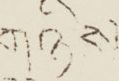གཉིས
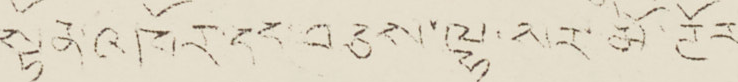སྟོན་འཁོར་དང་བཅས་ལྷ་སར་མོ་ཊོར་
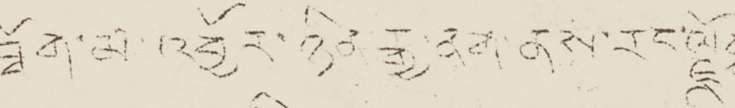ཐོག་མ་འབྱོར་ཉིན་རྒྱ་ནག་ནས་རང་སྗོངྶ་
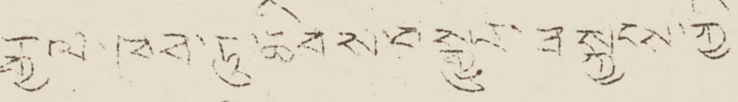རྒྱལ་ཁབ་ཏུ་ཆིབས་བསྒྱུར་བསྐྱངས་ཀྱི་
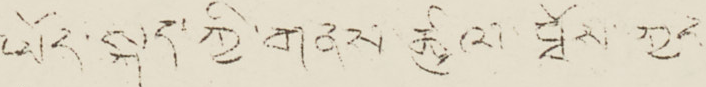ཡོད་སྐབས་ཀྱི་གནས་ཚུལ ཐོས་ཀྱང་
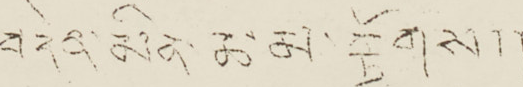བདེན་མིན་ཆ་མ་རྟོགས།།
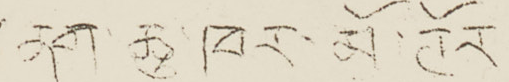༈ ནག་རྒྱ་ཁར་མོ་ཊོར:—
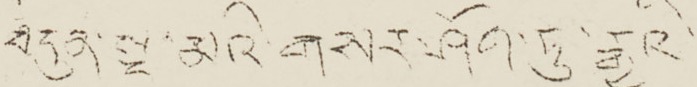བདུན་སྔ་མའི་གསར་ཤོག་ཏུ་རྒྱའི་
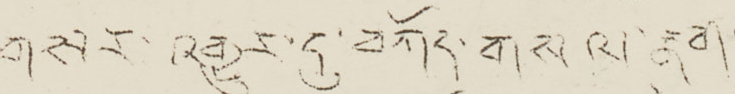གསར་འགྱུར་དུ་བཀོད་གསལ་ནག་
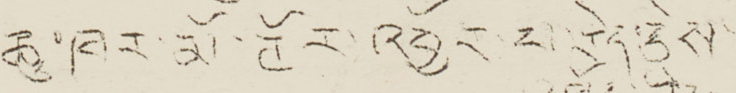ཆུ་ཁར་མོ་ཊོར་འབྱོར་པ་རེད་ཅེས་
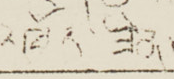འཁོན་ཟིན་
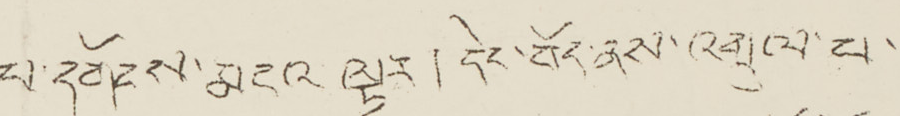པ་དགོངས་མངའ་ལྟར། དེང་བོད་ནས་འགྲུལ་པ་
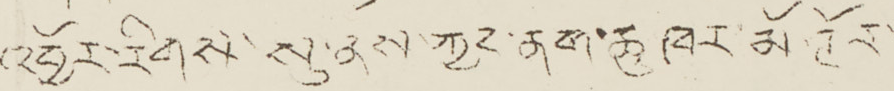འབྱོར་རིགས་སུ་ནས་ཀྱང་ནག་ཆུ ཁར་མོ་ཊོར་
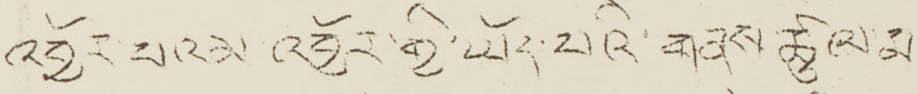འབྱོར་པའམ་འབྱོར་གྱི་ཡོད་པའི་གནས་ཚུལ་མ་
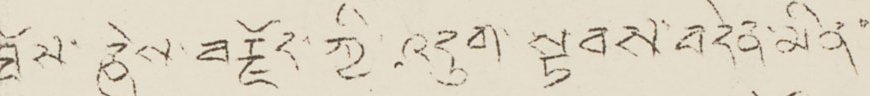ཐོས་ཅེས་བརྗོད་ཀྱི་འདུག་སྟབས་བདེན་མིན་
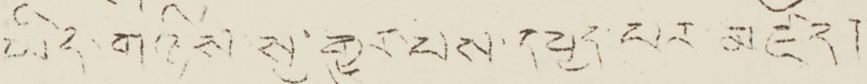ཡིད་གཉིས་སུ་གྱུར་པས་དཔྱད་པར མཛོད།།
